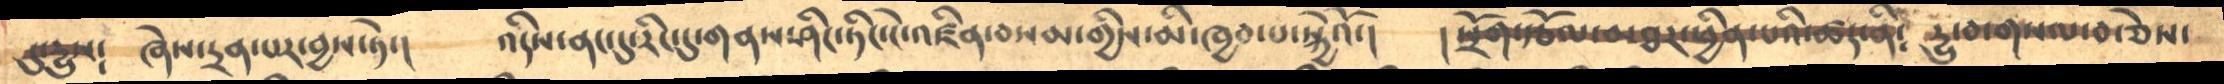ངུ་དྱུས༴   ཞེས་དྲན་པར་བྱས་ཏེ་།     འདིས་ནང་དུ་རིང་དུ་གནས་ཤིང་ཏིང་ངེ་འཛིན་བསམ་གྱིས་མི་ཁྱབ་པ་སྐྱེའོ་།      །སྲོག་རྩོལ་མཐར་ཕྱིན་པའི་ཚད་ནི༴  དྱུ་བ་གསལ་བ་ཅེས་
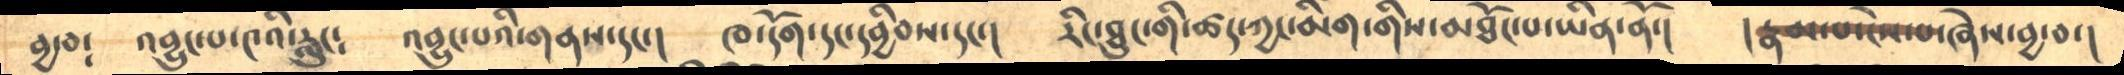བྱ་བ༴    འབྱུང་པ་༤འི་རླུང༴      འབྱུང་པའི་གནས་དང་།    ཁ་དོག་དང་དབྱིབས་དང་།   རིང་ཐུང་གི་ཚད་ཀྱང་མིག་གིས་མཐོང་པ་ཡིན་ནོ་།    །རྣམ་པ་ངེས་པ་ཞེས་བྱ་བ་།
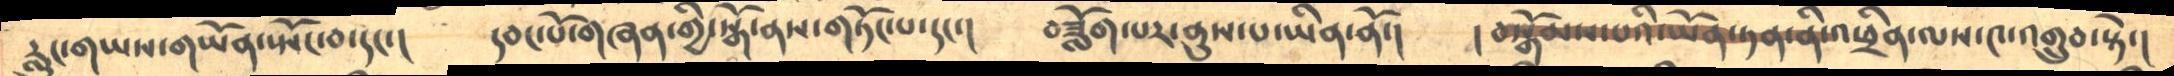རླུང་གཡས་གཡོན་སྤོང་བ་དང་།     དབང་པོ་གཞན་གྱི་སྒོ་ནས་གཏོང་པ་དང་།     བཟློག་པར་ནུས་པ་ཡིན་ནོ་།     །བསྒོམས་པའི་ཡོན་ཏན་ནི་འཕྲིན་ལས་༤་འགྲུབ་སྟེ་།
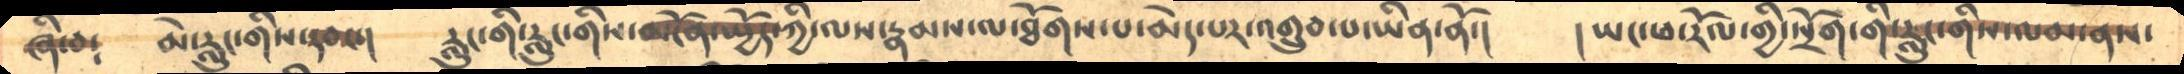ཞི་བ༴    མེ་རླུང་གིས་དབང་།     རླུང་གི་རླུང་གིས་མངོན་སྤྱོད་ཀྱི་ལས་རྣམས་ལ་ཐོགས་པ་མེད་པར་འགྲུབ་པ་ཡིན་ནོ་།     །ཡང་ཕ་རོལ་གྱི་སྲོག་གི་རླུང་གིས་ལམ་ནས་
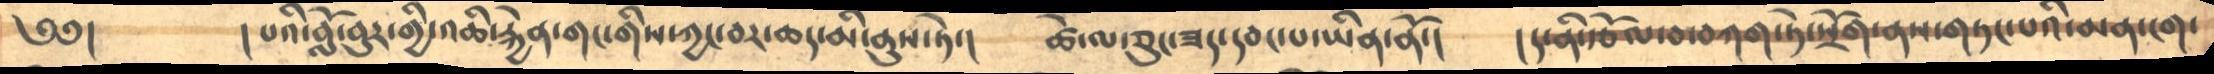༄༅།        །པའི་བློ་བུར་གྱི་འཆི་རྐྱེན་གང་གིས་ཀྱང་བར་ཆད་མི་ནུས་ཏེ་།    ཚེ་ལ་ཅུང་ཟད་དབང་པ་ཡིན་ནོ་།    །ད་ནི་རྩོལ་བ་བཀག་ཏེ་སྲོག་ནས་གཏང་པའི་མན་ངག་
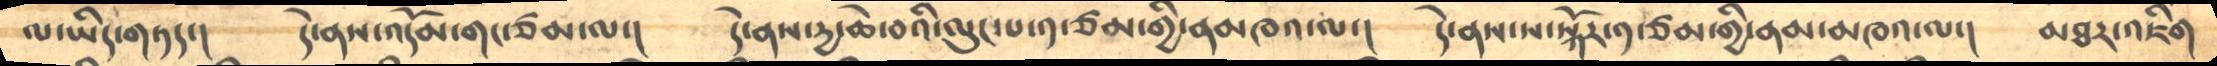ལ་ཡིད་གཏད་།     དེ་ནས་འདོམ་གང་ཙམ་ལ་།    དེ་ནས་དྱ་ཆེ་བའི་ལུང་པ་༡་ཙམ་གྱི་ནམཁའ་ལ་།   དེ་ནས་ས་སྐོར་༡་ཙམ་གྱི་ནམ་མཁའ་ལ་།   མཐར་འཇིག
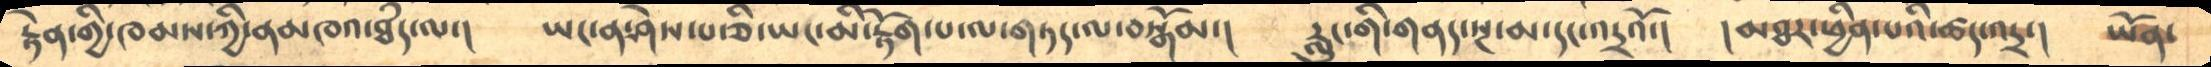རྟེན་གྱི་ཁམས་ཀྱི་ནམཁའ་ཐཾད་ལ་།    ཡང་ན་ཤེས་པ་ཅི་ཡང་མི་རྟོག་པ་ལ་གཏད་ལ་བསྒོམ་།    རླུང་གི་གནད་སྔ་མ་དང་འདྲའོ་།    །མཐར་ཕྱིན་པའི་ཚད་འདྲ་།   ཡོན་
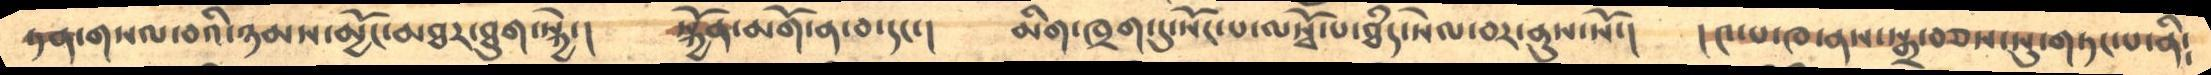ཏན་གསལ་བའི་ཉམས་མྱོང་མཐར་ཐུག་སྐྱེ་།    སྐྱོན་མགོ་ན་བ་དང་།    མིག་ཁྲག་དུ་སོང་པ་ལསྭོ་པ་ཐཾད་སེལ་བར་ནུས་སོ་།   །༤་པ་ཁ་ནས་སྒྲ་བཅས་སུ་གཏང་པ་ནི༴
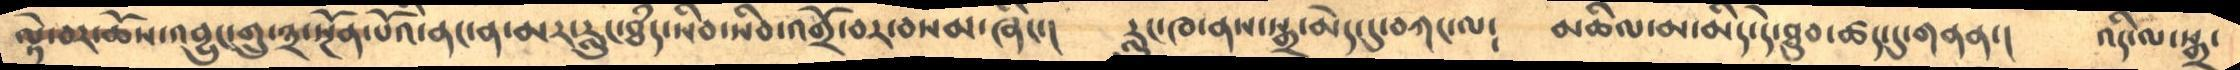ལྟེ་བར་ཆོས་འབྱུང་གྲུ་༣་སྔོན་པོའི་ནང་ན་མར་རླུང་ཐཾད་སིབ་སིབ་འགྲོ་བར་བསམ་ཞིང་།    རླུང་ཁ་ནས་སྒྲ་མེད་དུ་བཀང་ལ༴    མཆིལ་མ་མིད་དེ་ཐུབ་ཚད་དུ་གནན་།  འདི་ལ་སྒྲ་
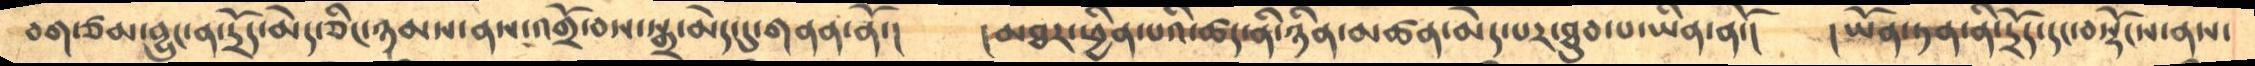བག་ཙམ་བྱུང་ན་དྲོད་མེད་ཅིང་ཉམས་ནས་འགྲོ་བས་སྒྲ་མེད་དུ་གནན་ནོ་།   །མཐར་ཕྱིན་པའི་ཚད་ནི་ཉིན་མཚན་མེད་པར་ཐུབ་པ་ཡིན་ནོ་།    ། ཡོན་ཏན་ནི་དྲོད་དང་བསྡོངས་ནས་
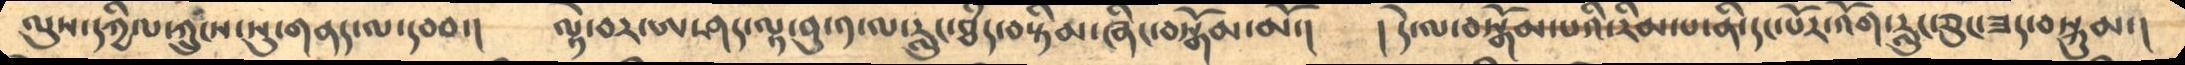ལུས་དཀྱིལ་ཀྲུངས་སུ་གནད་ལ་དབབ་།    ལྟེ་བར་ཨ་ཤད་ལྟ་བུ་༡་ལ་རླུང་ཐཾད་བསྟིམ་ཞིང་བསྒོམ་མོ་།   །དེ་ལ་བསྒོམ་པའི་རིམ་པ་ནི་དང་པོར་འོག་རླུང་ཅུང་ཟད་བསྐུམ་།
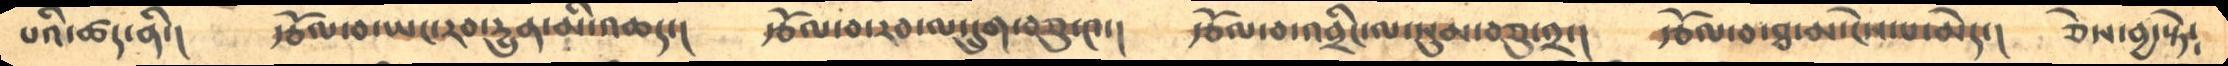པའི་ཚད་ནི་།   རྩོལ་བ་ཡང་རབ་དྱུན་མི་འཆད་།    རྩོལ་བ་རབ་ལ་དྲུག་བཅུ་༤་།    རྩོལ་བ་འབྲིང་ལ་སུམ་བཅུ་༢་།   རྩོལ་བ་ཐ་མ་ངེས་པ་མེད་།   ཅེས་བྱ་སྟེ༴
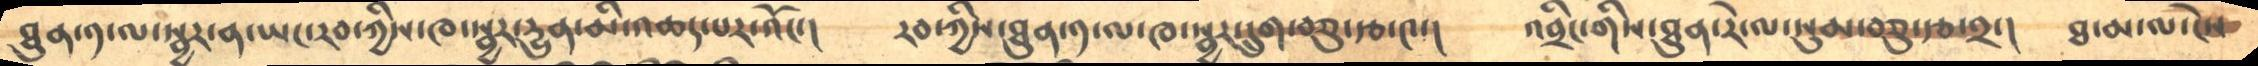ཐུན་༡་ལ་སྦྱར་ན་ཡང་རབ་ཀྱིས་ཁ་སྦྱར་དྱུན་མི་འཆད་པར་འོང་།    རབ་ཀྱིས་ཐུན་༡་ལ་ཁ་སྦྱར་དྲུག་བཅུ་རྩ་༤་།    འབྲིང་གིས་ཐུན་རེ་ལ་སུམ་བཅུ་རྩ་༢་།   ཐ་མ་ལ་ངེས་
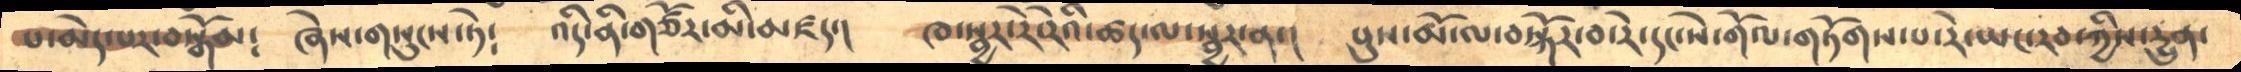པ་མེད་པར་བསྒོམ༴     ཞེས་གསུངས་ཏེ༴    འདི་ནི་གཙོར་མི་མཛད་།      ཁ་སྦྱར་རེ་རེའི་ཚད་ལ་སྦྱར་ན་།     པུས་མོ་ལ་བསྐོར་བ་རེ་དང་སེ་གོལ་གཏོགས་པ་རེ་ཡང་རབ་ཀྱིས་དྱུན་
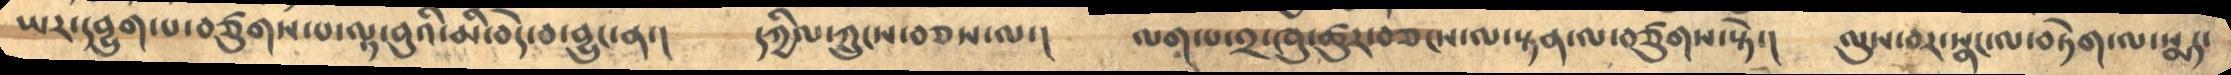ཡར་དབྱུག་པ་བཙུགས་པ་ལྟ་བུའི་མི་བདེ་བ་བྱུང་ན་།    དཀྱིལ་ཀྲུངས་བཅས་ལ་།    ལག་པ་༢་ཁུ་ཚུར་བཅངས་ལ་སྟན་ལ་བཙུགས་སྟེ་།    ལུས་བར་སྣང་ལ་བཏེག་ལ་སྨད་
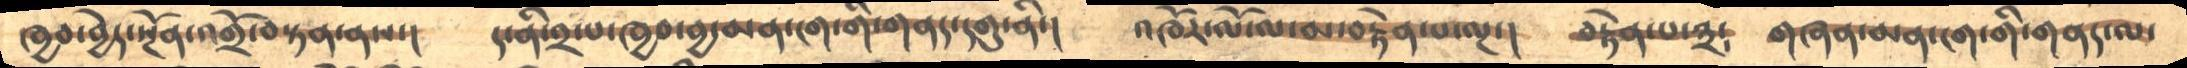ཁྱབ་བྱེད་སྔོན་འགྲོ་བསྟན་ནས་།   ད་ནི་༢་པ་ཁྱབ་བྱ་མན་ངག་གི་གནད་དགུ་ནི་།    འཁོར་ལོ་ལ་མ་བརྟེན་པ་ལྔ་།   བརྟེན་པ་༣༴    གཞན་མན་ངག་གི་གནད་ལ་
